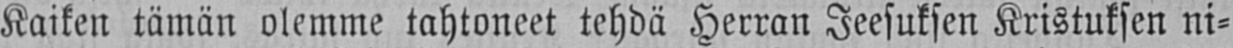Kaiken tämän olemme tahtoneet tehdä Herran Jeesuksen Kristuksen ni-
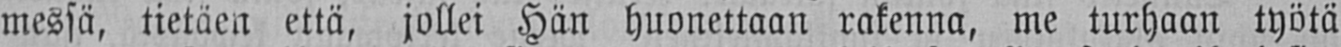messä, tietäen että, jollei Hän huonettaan rakenna, me turhaan työtä
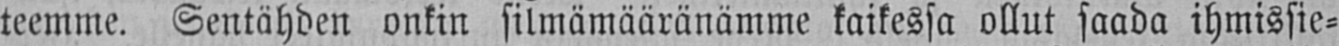teemme. Sentähden onkin silmämääränämme kaikessa ollut saada ihmissie-
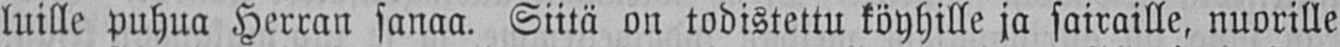luille puhua Herran sanaa. Siitä on todistettu köyhille ja sairaille, nuorille
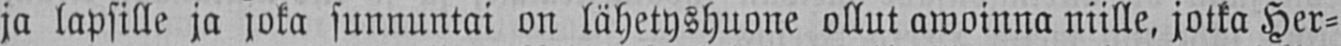ja lapsille ja joka sunnuntai on lähetyshuone ollut awoinna niille, jotka Her-
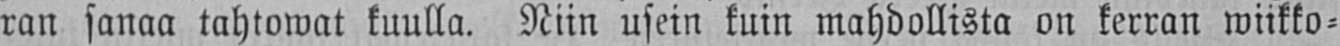ran sanaa tahtowat kuulla. Niin usein kuin mahdollista on kerran wiikko-
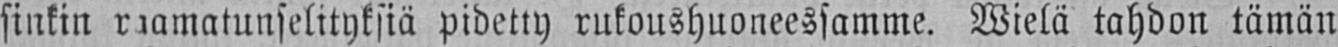sinkin raamatunselityksiä pidetty rukoushuoneessamme. Wielä tahdon tämän
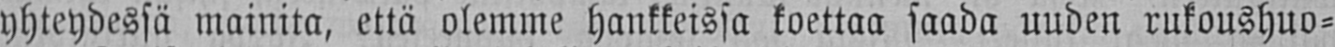yhteydessä mainita, että olemme hankkeissa koettaa saada uuden rukoushuo-
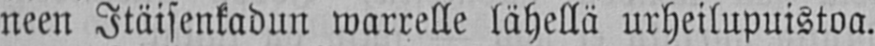neen Itäisenkadun warrelle lähellä urheilupuistoa.
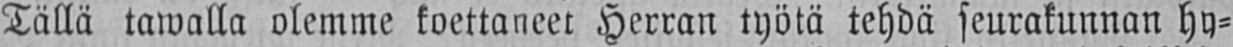Tällä tawalla olemme koettaneet Herran työtä tehdä seurakunnan hy-
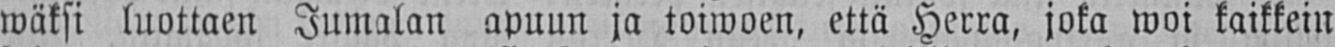wäksi luottaen Jumalan apuun ja toiwoen, että Herra, joka woi kaikkein
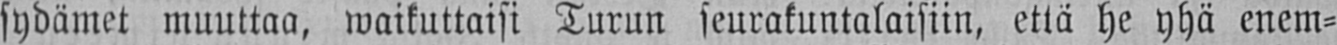sydämet muuttaa, waikuttaisi Turun seurakuntalaisiin, että he yhä enem-
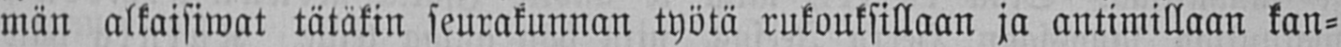män alkaisiwat tätäkin seurakunnan työtä rukouksillaan ja antimillaan kan-
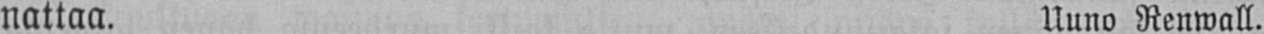nattaa. Uuno Renwall.
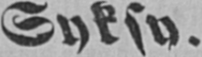Syksy.
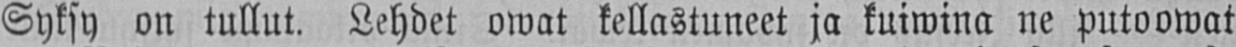Syksy on tullut. Lehdet owat kellastuneet ja kuiwina ne putoawat
